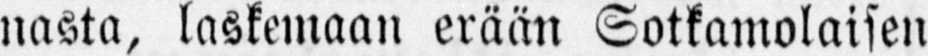nasta, laskemaan erään Sotkamolaisen
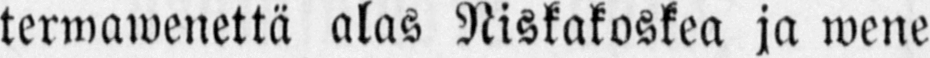terwawenettä alas Niskakoskea ja wene
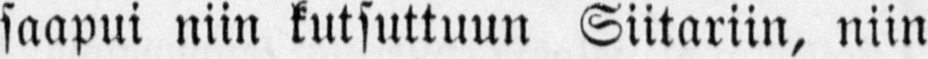saapui niin kutsuttuun Siitariin, niin
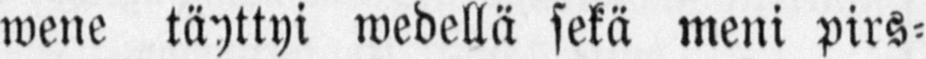wene täyttyi wedellä sekä meni pirs-
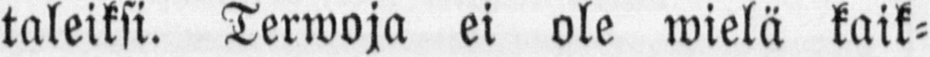taleiksi. Terwoja ei ole wielä kaik-
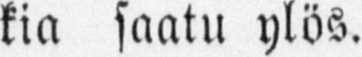kia saatu ylös.
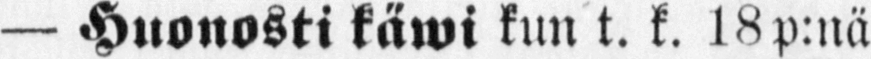— Huonosti käwi kun t. k. 18p:nä
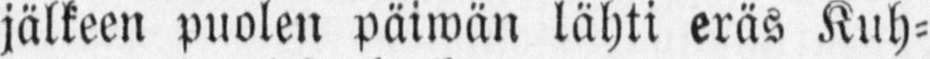jälkeen puolen päiwän lähti eräs Kuh-
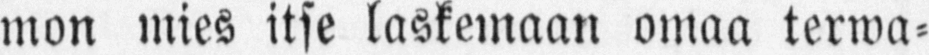mon mies itse laskemaan omaa terwa-
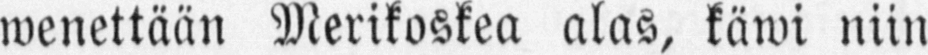wenettään Merikoskea alas, käwi niin
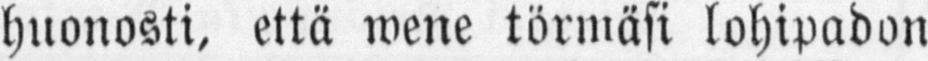huonosti, että wene törmäsi lohipadon
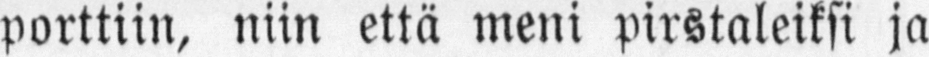porttiin, niin että meni pirstaleiksi ja
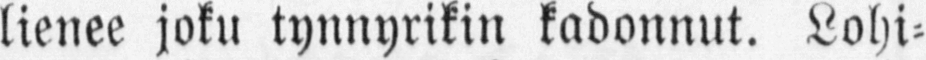lienee joku tynnyrikin kadonnut. Lohi-
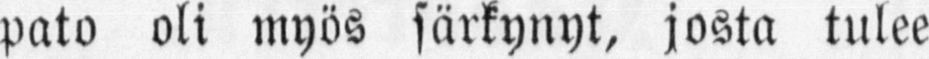pato oli myös särkynyt, josta tulee
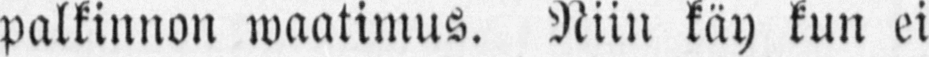palkinnon waatimus. Niin käy kun ei
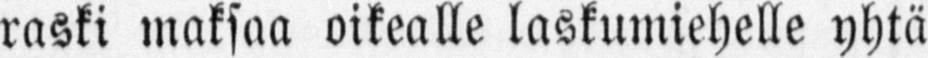raski maksaa oikealle laskumiehelle yhtä
